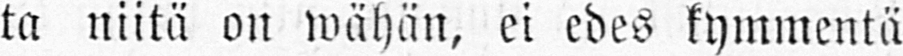ta niitä on wähän, ei edes kymmentä
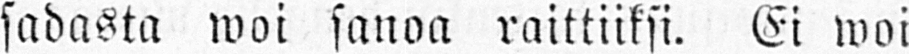sadasta woi sanoa raittiiksi. Ei woi
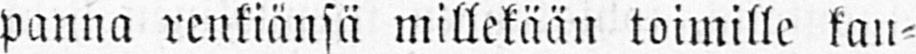panna renkiänsä millekään toimille kau-
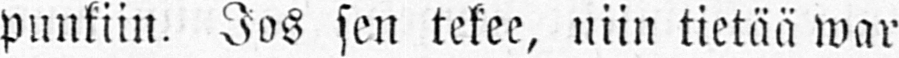punkiin. Jos sen tekee, niin tietää war-
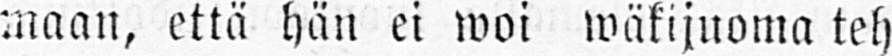maan, että hän ei woi wäkijuoma teh-
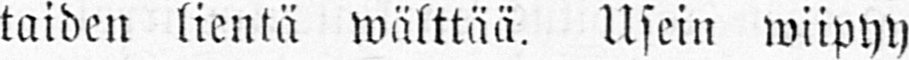taiden lientä wälttää. Usein wiipyy
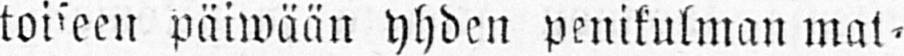toiseen päiwään yhden penikulman mat-
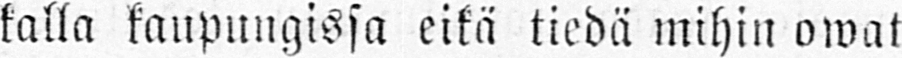kalla kaupungissa eikä tiedä mihin owat
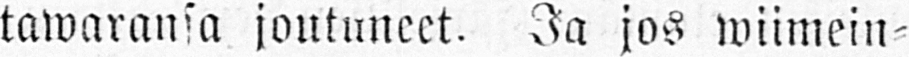tawaransa joutuneet. Ja jos wiimein-
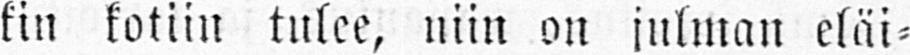kin kotiin tulee, niin on julman eläi-
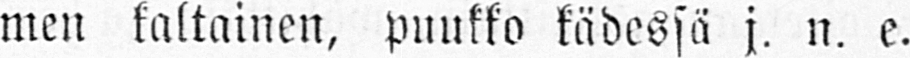men kaltainen, puukko kädessä j. n. e.
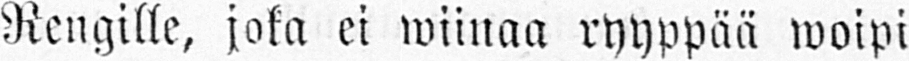Rengille, joka ei wiinaa ryyppää woipi
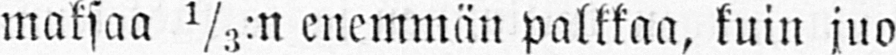waksaa ⅓:n enemmän palkkaa, kuin juo-
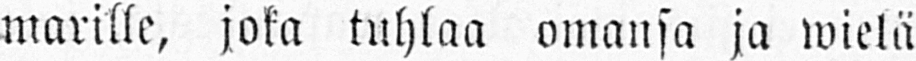marille, joka tuhlaa omansa ja wielä
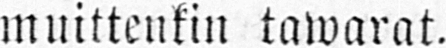muittenkin tawarat.
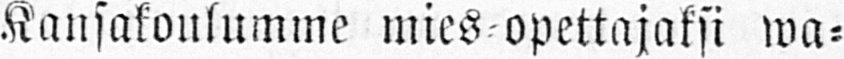Kansakoulumme mies-opettajaksi wa-
